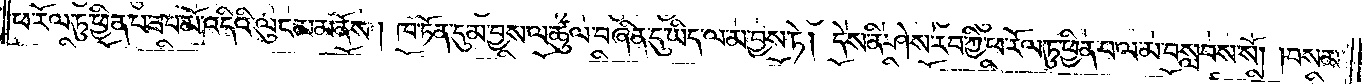ཕ་རོལ་ཏུ་ཕྱིན་པ་ཟབ་མོ་འདིའི་ལུང་མ་མནོས། ཁ་ཏོན་དུ་མ་བྱས་ལ་ཚུལ་བཞིན་དུ་ཡིད་ལ་མ་བྱས་ཏེ། དེས་ནི་ཤེས་རབ་ཀྱི་ཕ་རོལ་ཏུ་ཕྱིན་པ་ལ་མ་བསླབས་སོ། །བསམ་
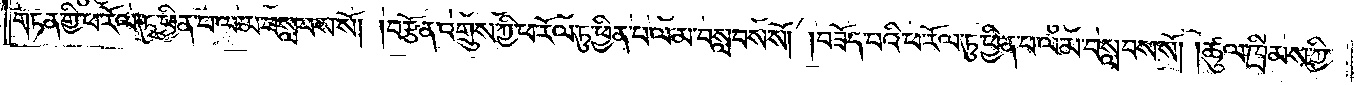གཏན་གྱི་ཕ་རོལ་ཏུ་ཕྱིན་པ་ལ་མ་བསླབས་སོ། །བརྩོན་འགྲུས་ཀྱི་ཕ་རོལ་ཏུ་ཕྱིན་པ་ལ་མ་བསླབས་སོ། །བཟོད་པའི་ཕ་རོལ་ཏུ་ཕྱིན་པ་ལ་མ་བསླབས་སོ། །ཚུལ་ཁྲིམས་ཀྱི་
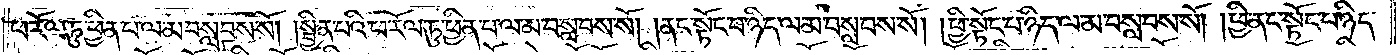ཕ་རོལ་ཏུ་ཕྱིན་པ་ལ་མ་བསླབས་སོ། །སྦྱིན་པའི་ཕ་རོལ་ཏུ་ཕྱིན་པ་ལ་མ་བསླབས་སོ། །ནང་སྟོང་པ་ཉིད་ལ་མ་བསླབས་སོ། །ཕྱི་སྟོང་པ་ཉིད་ལ་མ་བསླབས་སོ། །ཕྱི་ནང་སྟོང་པ་ཉིད་
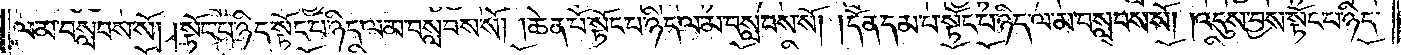ལ་མ་བསླབས་སོ། །སྟོང་པ་ཉིད་སྟོང་པ་ཉིད་ལ་མ་བསླབས་སོ། །ཆེན་པོ་སྟོང་པ་ཉིད་ལ་མ་བསླབས་སོ། །དོན་དམ་པ་སྟོང་པ་ཉིད་ལ་མ་བསླབས་སོ། །འདུས་བྱས་སྟོང་པ་ཉིད་
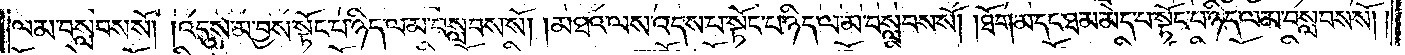ལ་མ་བསླབས་སོ། །འདུས་མ་བྱས་སྟོང་པ་ཉིད་ལ་མ་བསླབས་སོ། །མཐའ་ལས་འདས་པ་སྟོང་པ་ཉིད་ལ་མ་བསླབས་སོ། །ཐོག་མ་དང་ཐ་མ་མེད་པ་སྟོང་པ་ཉིད་ལ་མ་བསླབས་སོ། །
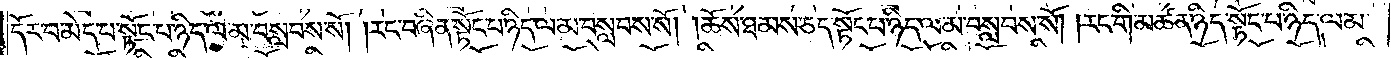དོར་བ་མེད་པ་སྟོང་པ་ཉིད་ལ་མ་བསླབས་སོ། །རང་བཞིན་སྟོང་པ་ཉིད་ལ་མ་བསླབས་སོ། །ཆོས་ཐམས་ཅད་སྟོང་པ་ཉིད་ལ་མ་བསླབས་སོ། །རང་གི་མཚན་ཉིད་སྟོང་པ་ཉིད་ལ་མ་
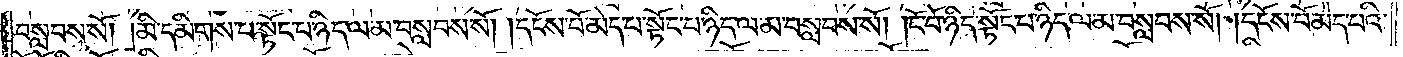བསླབས་སོ། །མི་དམིགས་པ་སྟོང་པ་ཉིད་ལ་མ་བསླབས་སོ། །དངོས་པོ་མེད་པ་སྟོང་པ་ཉིད་ལ་མ་བསླབས་སོ། །ངོ་བོ་ཉིད་སྟོང་པ་ཉིད་ལ་མ་བསླབས་སོ། །དངོས་པོ་མེད་པའི་
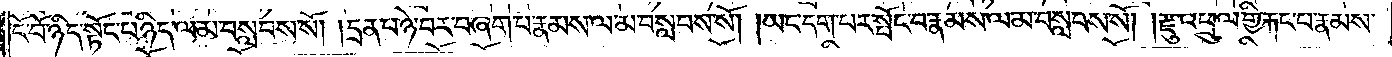ངོ་བོ་ཉིད་སྟོང་པ་ཉིད་ལ་མ་བསླབས་སོ། །དྲན་པ་ཉེ་བར་བཞག་པ་རྣམས་ལ་མ་བསླབས་སོ། །ཡང་དག་པར་སྤོང་བ་རྣམས་ལ་མ་བསླབས་སོ། །རྫུ་འཕྲུལ་གྱི་རྐང་པ་རྣམས་
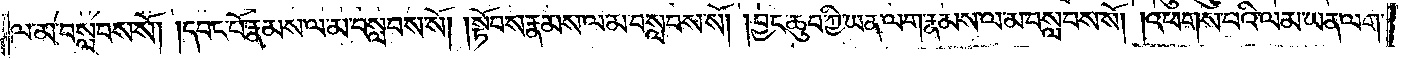ལ་མ་བསླབས་སོ། །དབང་པོ་རྣམས་ལ་མ་བསླབས་སོ། །སྟོབས་རྣམས་ལ་མ་བསླབས་སོ། །བྱང་ཆུབ་ཀྱི་ཡན་ལག་རྣམས་ལ་མ་བསླབས་སོ། །འཕགས་པའི་ལམ་ཡན་ལག་
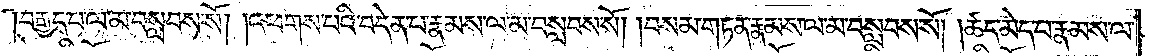བརྒྱད་པ་ལ་མ་བསླབས་སོ། །འཕགས་པའི་བདེན་པ་རྣམས་ལ་མ་བསླབས་སོ། །བསམ་གཏན་རྣམས་ལ་མ་བསླབས་སོ། །ཚད་མེད་པ་རྣམས་ལ་
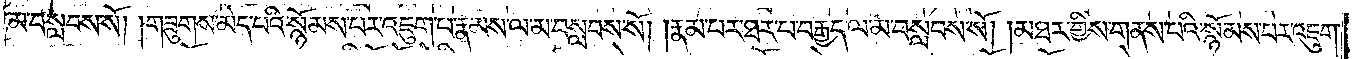མ་བསླབས་སོ། །གཟུགས་མེད་པའི་སྙོམས་པར་འཇུག་པ་རྣམས་ལ་མ་བསླབས་སོ། །རྣམ་པར་ཐར་པ་བརྒྱད་ལ་མ་བསླབས་སོ། །མཐར་གྱིས་གནས་པའི་སྙོམས་པར་འཇུག་
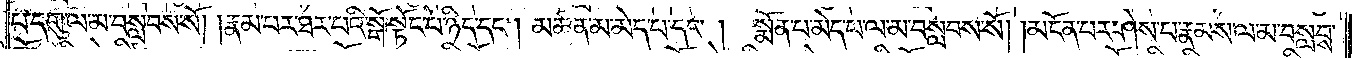པ་དགུ་ལ་མ་བསླབས་སོ། །རྣམ་པར་ཐར་པའི་སྒོ་སྟོང་པ་ཉིད་དང༌། མཚན་མ་མེད་པ་དང༌། སྨོན་པ་མེད་པ་ལ་མ་བསླབས་སོ། །མངོན་པར་ཤེས་པ་རྣམས་ལ་མ་བསླབས་
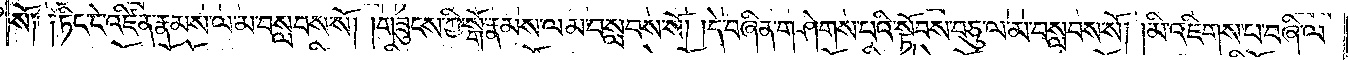སོ། །ཏིང་ངེ་འཛིན་རྣམས་ལ་མ་བསླབས་སོ། །གཟུངས་ཀྱི་སྒོ་རྣམས་ལ་མ་བསླབས་སོ། །དེ་བཞིན་གཤེགས་པའི་སྟོབས་བཅུ་ལ་མ་བསླབས་སོ། །མི་འཇིགས་པ་བཞི་ལ་
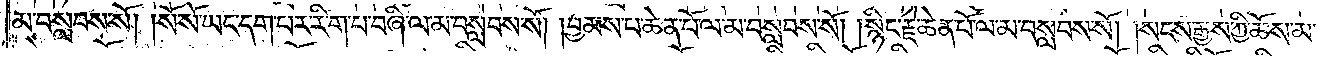མ་བསླབས་སོ། །སོ་སོ་ཡང་དག་པར་རིག་པ་བཞི་ལ་མ་བསླབས་སོ། །བྱམས་པ་ཆེན་པོ་ལ་མ་བསླབས་སོ། །སྙིང་རྗེ་ཆེན་པོ་ལ་མ་བསླབས་སོ། །སངས་རྒྱས་ཀྱི་ཆོས་མ་
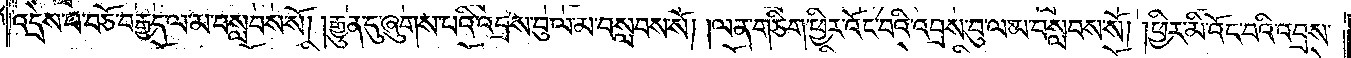འདྲེས་པ་བཅོ་བརྒྱད་ལ་མ་བསླབས་སོ། །རྒྱུན་དུ་ཞུགས་པའི་འབྲས་བུ་ལ་མ་བསླབས་སོ། །ལན་གཅིག་ཕྱིར་འོང་བའི་འབྲས་བུ་ལ་མ་བསླབས་སོ། །ཕྱིར་མི་འོང་བའི་འབྲས་
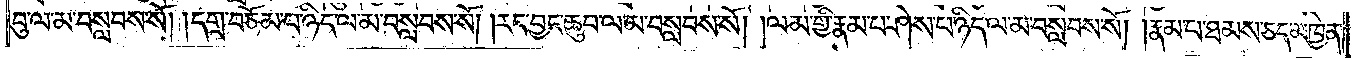བུ་ལ་མ་བསླབས་སོ། །དགྲ་བཅོམ་པ་ཉིད་ལ་མ་བསླབས་སོ། །རང་བྱང་ཆུབ་ལ་མ་བསླབས་སོ། །ལམ་གྱི་རྣམ་པ་ཤེས་པ་ཉིད་ལ་མ་བསླབས་སོ། །རྣམ་པ་ཐམས་ཅད་མཁྱེན་
